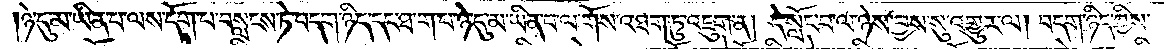ཉེ་དུ་མ་ཡིན་པ་ལས་དོག་པ་བསླངས་ཏེ་བདག་ཉིད་དང་ཐ་ག་པ་ཉེ་དུ་མ་ཡིན་པ་ལ་གོས་འཐག་ཏུ་འཇུག་ན། དེ་སློང་བ་ལ་ཉེས་བྱས་སུ་འགྱུར་ལ། བདག་ཉིད་ཀྱིས་
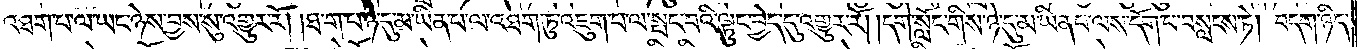འཐག་པ་ལ་ཡང་ཉེས་བྱས་སུ་འགྱུར་རོ། །ཐ་ག་པ་ཉེ་དུ་མ་ཡིན་པ་ལ་འཐག་ཏུ་འཇུག་པ་ལ་སྤང་བའི་ལྟུང་བྱེད་དུ་འགྱུར་རོ། །དགེ་སློང་གིས་ཉེ་དུ་མ་ཡིན་པ་ལས་དོག་པ་བསླངས་ཏེ། བདག་ཉིད་
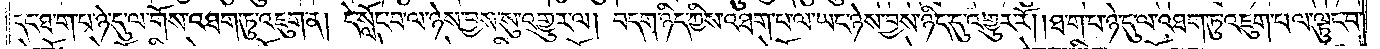དང་ཐ་ག་པ་ཉེ་དུ་ལ་གོས་འཐག་ཏུ་འཇུག་ན། དེ་སློང་བ་ལ་ཉེས་བྱས་སུ་འགྱུར་ལ། བདག་ཉིད་ཀྱིས་འཐག་པ་ལ་ཡང་ཉེས་བྱས་ཉིད་དུ་འགྱུར་རོ། །ཐ་ག་པ་ཉེ་དུ་ལ་འཐག་ཏུ་འཇུག་པ་ལ་ལྟུང་བ་
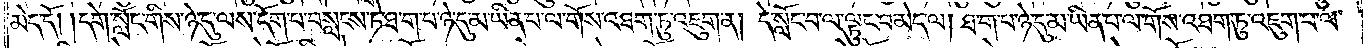མེད་དོ། །དགེ་སློང་གིས་ཉེ་དུ་ལས་དོག་པ་བསླངས་ཏེ་ཐ་ག་པ་ཉེ་དུ་མ་ཡིན་པ་ལ་གོས་འཐག་ཏུ་འཇུག་ན། དེ་སློང་བ་ལ་ལྟུང་བ་མེད་ལ། ཐ་ག་པ་ཉེ་དུ་མ་ཡིན་པ་ལ་གོས་འཐག་ཏུ་འཇུག་པ་ལ་
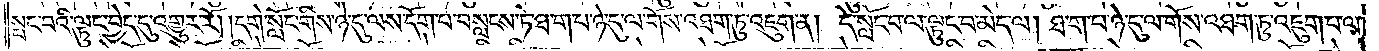སྤང་བའི་ལྟུང་བྱེད་དུ་འགྱུར་རོ། །དགེ་སློང་གིས་ཉེ་དུ་ལས་དོག་པ་བསླངས་ཏེ་ཐ་ག་པ་ཉེ་དུ་ལ་གོས་འཐག་ཏུ་འཇུག་ན། དེ་སློང་བ་ལ་ལྟུང་བ་མེད་ལ། ཐ་ག་པ་ཉེ་དུ་ལ་གོས་འཐག་ཏུ་འཇུག་པ་ལ་
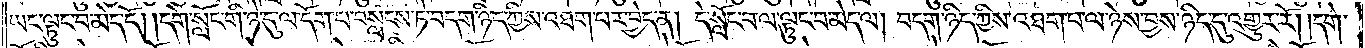ཡང་ལྟུང་བ་མེད་དོ། །དགེ་སློང་གི་ཉེ་དུ་ལ་དོག་པ་བསླངས་ཏེ་བདག་ཉིད་ཀྱིས་འཐག་པར་བྱེད་ན། དེ་སློང་བ་ལ་ལྟུང་བ་མེད་ལ། བདག་ཉིད་ཀྱིས་འཐག་པ་ལ་ཉེས་བྱས་ཉིད་དུ་འགྱུར་རོ། །དགེ་
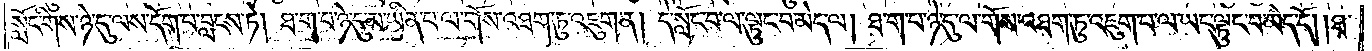སློང་གིས་ཉེ་དུ་ལས་དོག་པ་བླངས་ཏེ། ཐ་ག་པ་ཉེ་དུ་མ་ཡིན་པ་ལ་གོས་འཐག་ཏུ་འཇུག་ན། དེ་སློང་བ་ལ་ལྟུང་བ་མེད་ལ། ཐ་ག་པ་ཉེ་དུ་ལ་གོས་འཐག་ཏུ་འཇུག་པ་ལ་ཡང་ལྟུང་བ་མེད་དོ། །ཐ་
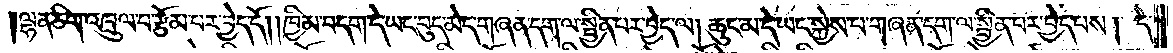ལྷན་ཅིག་འཁྲུལ་པ་རྩོམ་པར་བྱེད་དོ། །ཁྱིམ་བདག་དེ་ཡང་བུད་མེད་གཞན་དག་ལ་སྦྱིན་པར་བྱེད་ལ། ཆུང་མ་དེ་ཡང་སྐྱེས་པ་གཞན་དག་ལ་སྦྱིན་པར་བྱད་པས། དེ་
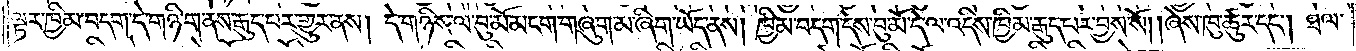ལྟར་ཁྱིམ་བདག་དེ་གཉི་ག་ནས་རྒུད་པར་གྱུར་ནས། དེ་གཉིས་ལ་བུ་མོ་མངག་གཞུག་མ་ཞིག་ཡོད་ནས། ཁྱིམ་བདག་དེས་བུ་མོ་དེ་ལ་འདིས་ཁྱིམ་རྒུད་པར་བྱས་སོ། །ཞེས་ཁུ་ཚུར་དང༌། ཐལ་
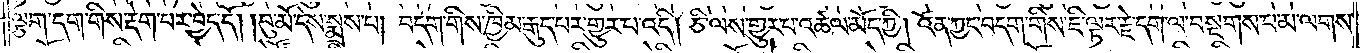ལྕག་དག་གིས་རྡེག་པར་བྱེད་དོ། །བུ་མོ་དེས་སྨྲས་པ། བདག་གིས་ཁྱིམ་རྒུད་པར་གྱུར་པ་འདི། ཅི་ལས་གྱུར་པ་འཚལ་མོད་ཀྱི། འོན་ཀྱང་བདག་གིས་ཇི་ལྟར་རྗེ་དག་ལ་བསྔགས་པ་མ་ལགས་
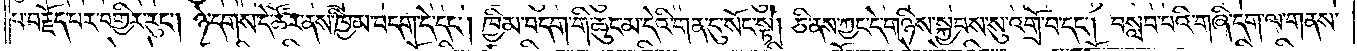པ་བརྗོད་པར་བགྱིར་རུང༌། ཉེ་དགས་དེ་ཚོར་ནས་ཁྱིམ་བདག་དེ་དང༌། ཁྱིམ་བདག་གི་ཆུང་མ་དེའི་གན་དུ་སོང་སྟེ། ཅི་ནས་ཀྱང་དེ་གཉིས་སྐྱབས་སུ་འགྲོ་བ་དང༌། བསླབ་པའི་གཞི་དག་ལ་གནས་
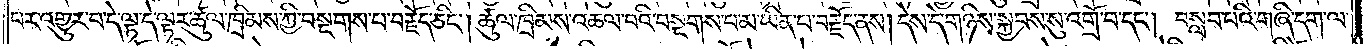པར་འགྱུར་པ་དེ་ལྟ་དེ་ལྟར་ཚུལ་ཁྲིམས་ཀྱི་བསྔགས་པ་བརྗོད་ཅིང༌། ཚུལ་ཁྲིམས་འཆལ་བའི་བསྔགས་པ་མ་ཡིན་པ་བརྗོད་ནས། དེས་དེ་གཉིས་སྐྱབས་སུ་འགྲོ་བ་དང༌། བསླབ་པའི་གཞི་དག་ལ་
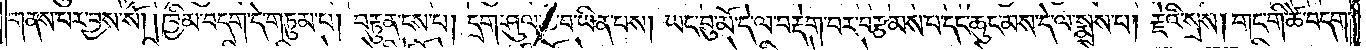གནས་པར་བྱས་སོ། །ཁྱིམ་བདག་དེ་གཏུམ་པ། བརྟུན་ངས་པ། དྲག་ཤུལ་ཆེ་བ་ཡིན་པས། ཡང་བུ་མོ་དེ་ལ་བརྡེག་པར་བརྩམས་པ་དང་ཆུང་མས་དེ་ལ་སྨྲས་པ། རྗེའི་སྲས། གང་གི་ཚེ་བདག་
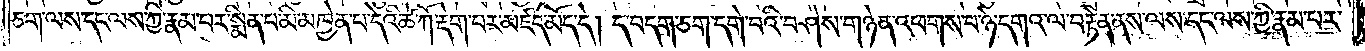ཅག་ལས་དང་ལས་ཀྱི་རྣམ་པར་སྨིན་པ་མི་མཁྱེན་པ་དེའི་ཚེ་ཀོ་རྡེག་པར་མཛད་མོད་དེ། ད་བདག་ཅག་དགེ་བའི་བཤེས་གཉེན་འཕགས་པ་ཉེ་དགའ་ལ་བརྟེན་ནས་ལས་དང་ལས་ཀྱི་རྣམ་པར་
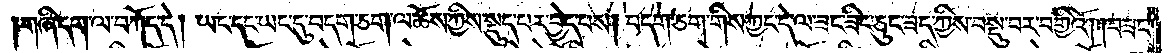གཞི་དག་ལ་བཀོད་དེ། ཡང་དང་ཡང་དུ་བདག་ཅག་ལ་ཆོས་ཀྱིས་སྡུད་པར་བྱེད་པས། བདག་ཅག་གིས་ཀྱང་དེ་ལ་ཟང་ཟིང་ཅུང་ཟད་ཀྱིས་བསྡུ་བར་བགྱིའོ། །བཟང་
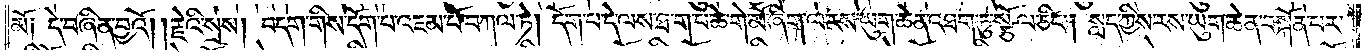མོ༑ དེ་བཞིན་བྱའོ། །རྗེའི་སྲས། བདག་གིས་དོག་པ་འཇམ་པོ་བཀལ་ཏེ། དོག་པ་དེ་ལས་ཐ་ག་པ་ཆེ་གེ་མོ་ཞིག་ལ་རས་ཡུག་ཆེན་འཐག་ཏུ་སྩོལ་ཅིང༌། སླད་ཀྱིས་རས་ཡུག་ཆེན་བསྐོན་པར་
